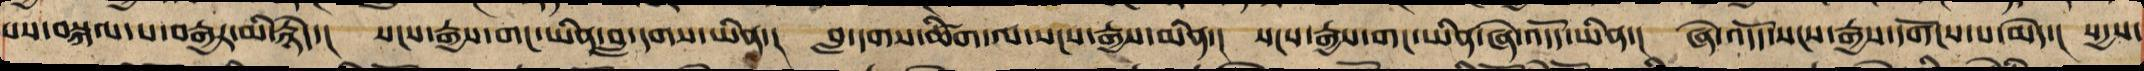པས་བསྐལ་པ་བརྒྱར་མི་རྙེད་། སངས་རྒྱས་གང་ཡིན་བླ་དྭགས་ཡིན་། བླ་དྭགས་ཚིག་ལ་སངས་རྒྱས་མིན་། སངས་རྒྱས་གང་ཡིན་ཞེ་འདོད་ཡིན་། ཞེ་འདོད་སངས་རྒྱས་དགོས་པ་མེད་། སདྱས་
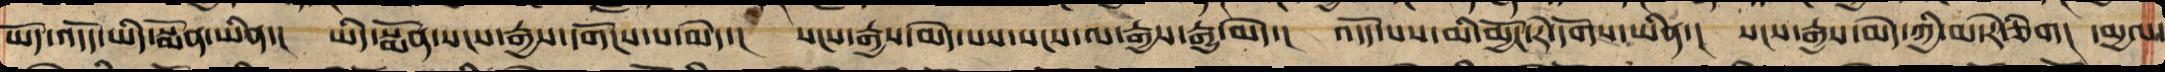ཡོད་འདོད་ཡིད་སྨོན་ཡིན་། ཡིད་སྨོན་སངས་རྒྱས་དགོས་པ་མེད་། སངས་རྒྱས་མེད་པས་སངས་ལ་རྒྱས་རྒྱུ་མེད་། འདོད་པས་མི་མྱོང་རེ་དོགས་ཡིན་། སངས་རྒྱས་མེད་ཀྱིས་མ་རེ་ཅིག། དམྱལ་
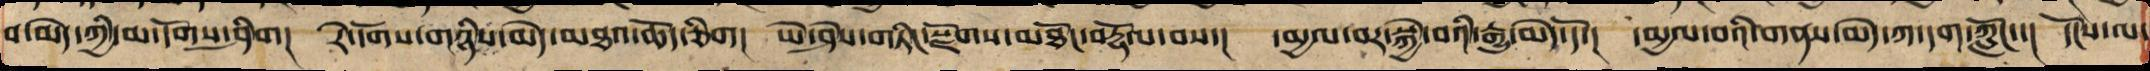བ་མེད་ཀྱིས་མ་དོགས་ཤིག། རེ་དོགས་གཉིས་མེད་མཐའ་ཆོད་ཅིག། ཡེ་ཤེས་གཏིང་སྫོགས་མཐོང་བརྟོལ་བས་། དམྱལ་བར་སྐྱེ་བའི་རྒྱུ་མེད་དོ་། དམྱལ་བའི་གནས་མེད་ཀ་དག་ཀློང་་། དངོས་ལ་
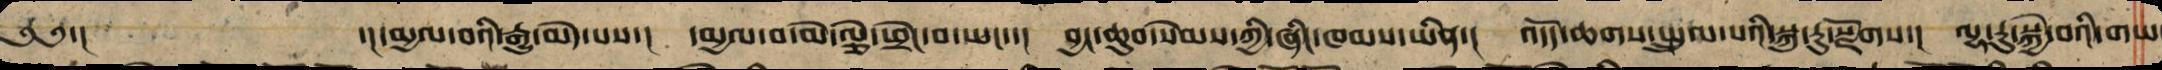༄༅་། དམྱལ་བའི་རྒྱུ་མེད་པས་། དམྱལ་བ་མེ་ལྕེའི་ཕྲེང་བ་ཡང་་། བྱང་ཆུབ་སེམས་ཀྱི་ཞིང་ཁམས་ཡིན་། འདོད་ཆགས་སྤྲུལ་པའི་སྐུ་རུ་སྫོགས་། ལྷ་རུ་སྐྱེ་བའི་གཡ
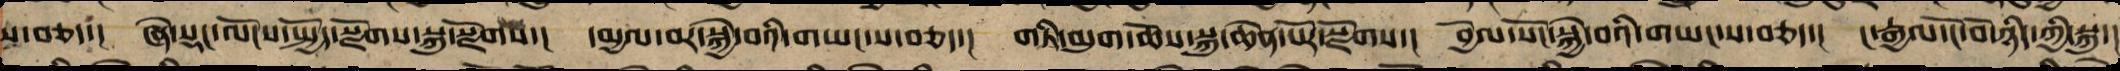ས་བཅད་། ཞེ་སྡང་ལོངས་སྤྱོད་སྫོགས་སྐུ་སྫོགས་། དམྱལ་བར་སྐྱེ་བའི་གཡང་ས་བཅད་། གཏི་མུག་ཆོས་སྐུ་ཆེན་པོར་སྫོགས་། བྱོལ་སོང་སྐྱེ་བའི་གཡང་ས་བཅད་། ང་རྒྱལ་ངོ་བོ་ཉིད་ཀྱི་སྐུ་ང
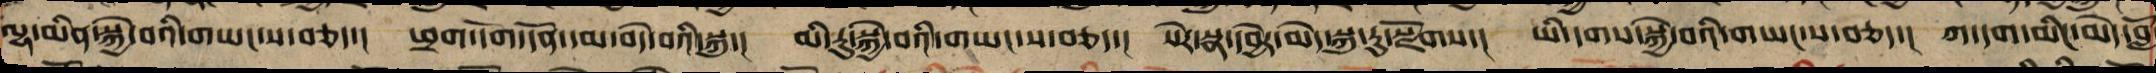ལྷ་མིན་སྐྱེ་བའི་གཡང་ས་བཅད་། ཕྲག་དོག་དོན་དམ་བདེ་བའི་སྐུ་། མི་རུ་སྐྱེ་བའི་གཡང་ས་བཅད་། སེར་སྣ་དབྱེར་མེད་སྐུ་རུ་སྫོགས། ཡི་དྭགས་སྐྱེ་བའི་གཡང་ས་བཅད་། ཀ་དག་མིང་མེད་བློ
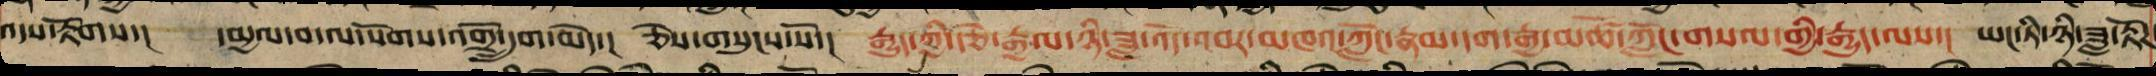འདས་རྟོགས་། དམྱལ་བ་ལ་སོགས་འགྲོ་དྲུག་མེད་། ཅེས་གསུངས་སོ་། རྒྱུད་ཀྱི་རྩེ་རྒྱལ་ཉི་ཟླ་འོད་འབར་མཁའ་ཀློང་རྣམ་དག་རྒྱ་མཚོ་ཀློང་གསལ་གྱི་རྒྱུད་ལས་། ཡང་ཏི་ཉི་ཟླ་རྟོཌ
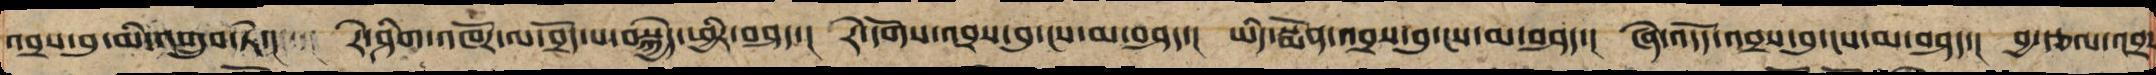འབྲས་བུ་མི་འགྲུབ་ཏེ་། རེ་ཤིག་འཁོར་ལ་བྲོད་པ་བསྐྱེད་ཕྱིར་བཤད་། རེ་དོགས་འབྲས་བུ་ངས་མ་བཤད་། ཡིད་སྨོན་འབྲས་བུ་ངས་མ་བཤད་། ཞེ་འདོད་འབྲས་བུ་ངས་མ་བཤད་། བྱ་བཙལ་འབྲ་
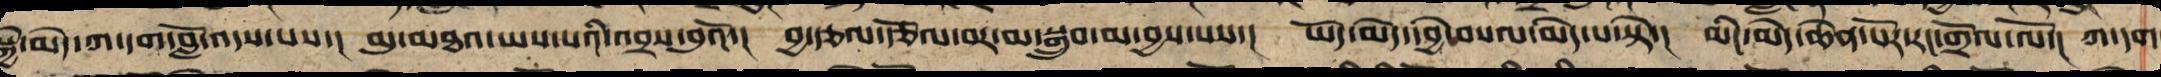སྐྱེ་མེད་ཀ་དག་བློ་འདས་པས་། མུ་མཐའ་ཡས་པའི་འབྲས་བུའོ་། བྱ་བཙལ་རྩོལ་བས་མ་བསྒྲུབས་མ་བྱས་པས་། ཡོད་མེད་དབྱེ་བསལ་མེད་པ་སྟེ་། མིང་མེད་ཆེན་པོར་རང་གྲོལ་ལོ་། ཀ་དག
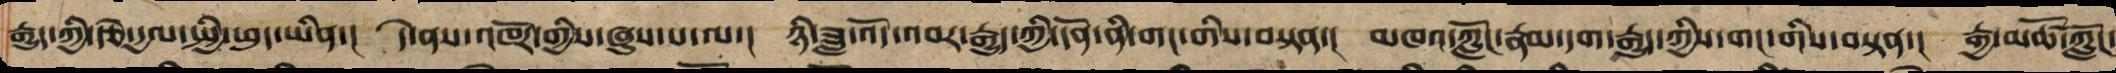རྒྱུད་ཀྱི་རྩེ་རྒྱལ་སྤྱི་ཕུད་ཡིན་། དེ་ནས་འཁོར་གྱིས་ཞུས་པ་ལ་། ཉི་ཟླ་འོད་འབར་རྒྱུད་ཀྱིས་དོན་ནི་གང་ཞིག་བསྟན་། མཁའ་ཀློང་རྣམ་དག་རྒྱུད་ཀྱིས་དོན་ནི་གང་ཞིག་བསྟན་། རྒྱ་མཚོ་ཀློང་
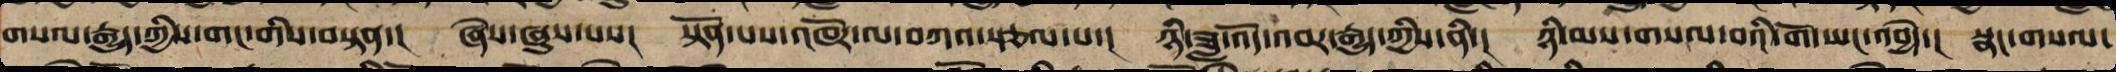གསལ་རྒྱུད་ཀྱིས་དོན་ནི་གང་ཞིག་བསྟན་། ཞེས་ཞུས་པས། སྟོན་པས་འཁོར་ལ་བཀའ་སྩལ་པ་། ཉི་ཟླ་འོད་འབར་རྒྱུད་ཀྱིས་ནི་། ཉི་མས་གསལ་བའི་གོ་ཡང་འབྱེད་། སྣང་གསལ་
